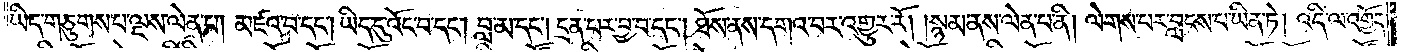ཡིད་གཅུགས་པ་ལྔས་ལེན་པ། མཛའ་བ་དང༌། ཡིད་དུ་འོང་བ་དང༌། བླ་མ་དང༌། དྲན་པར་བྱ་བ་དང༌། ཐོས་ནས་དགའ་བར་འགྱུར་རོ། །སྙམ་ནས་ལེན་པ་ནི། ལེགས་པར་བླངས་པ་ཡིན་ཏེ། འདི་ལ་འགྱོད་
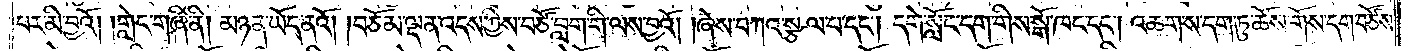པར་མི་བྱའོ། །གླེང་གཞི་ནི། མཉན་ཡོད་ནའོ། །བཅོམ་ལྡན་འདས་ཀྱིས་བཙོ་བླག་གི་ལས་བྱའོ། །ཞེས་བཀའ་སྩལ་པ་དང༌། དགེ་སློང་དག་གིས་སྒོ་ཁང་དང༌། འཆགས་དག་ཏུ་ཆོས་གོས་དག་བཙོས་
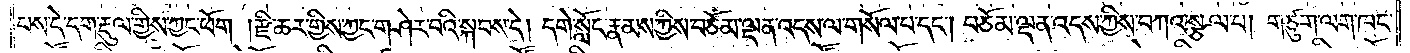པས་དེ་དག་རྡུལ་གྱིས་ཀྱང་ཕོག །རྫི་ཆར་གྱིས་ཀྱང་གཤེར་བའི་སྐབས་དེ། དགེ་སློང་རྣམས་ཀྱིས་བཅོམ་ལྡན་འདས་ལ་གསོལ་པ་དང༌། བཅོམ་ལྡན་འདས་ཀྱིས་བཀའ་སྩལ་པ། གཙུག་ལག་ཁང་
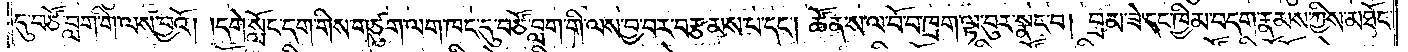དུ་བཙོ་བླག་གི་ལས་བྱའོ། །དགེ་སློང་དག་གིས་གཙུག་ལག་ཁང་དུ་བཙོ་བླག་གི་ལས་བྱས་བར་བརྩམས་པ་དང༌། ཚོན་ས་ལ་བོ་བ་ཁྲག་ལྟ་བུར་སྣང་བ། བྲམ་ཟེ་དང་ཁྱིམ་བདག་རྣམས་ཀྱིས་མཐོང་
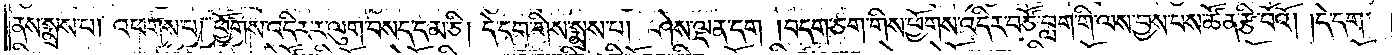ནས་སྨྲས་པ། འཕགས་པ། ཕྱོགས་འདིར་ར་ལུག་བསད་དམ་ཅི། དེ་དག་གིས་སྨྲས་པ། ཤེས་ལྡན་དག །བདག་ཅག་གིས་ཕྱོགས་འདིར་བཙོ་བླག་གི་ལས་བྱས་པས་ཚོན་རྩི་བོའོ། །དེ་དག་
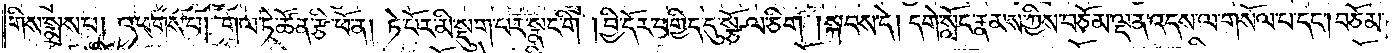གིས་སྨྲས་པ། འཕགས་པ། གལ་ཏེ་ཚོན་རྩི་ཕོ་ན། ཏེ་པོར་མི་སྡུག་པར་སྣང་གི། བྱི་དོར་བགྱིད་དུ་སྩོལ་ཅིག །སྐབས་དེ། དགེ་སློང་རྣམས་ཀྱིས་བཅོམ་ལྡན་འདས་ལ་གསོལ་པ་དང༌། བཅོམ་
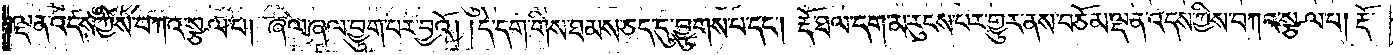ལྡན་འདས་ཀྱིས་བཀའ་སྩལ་པ། ཞལ་ཞལ་བྱུག་པར་བྱའོ། །དེ་དག་གིས་ཐམས་ཅད་དུ་བྱུགས་པ་དང༌། རྡོ་ཐལ་དག་མ་རུངས་པར་གྱུར་ནས་བཅོམ་ལྡན་འདས་ཀྱིས་བཀའ་སྩལ་པ། རྡོ་
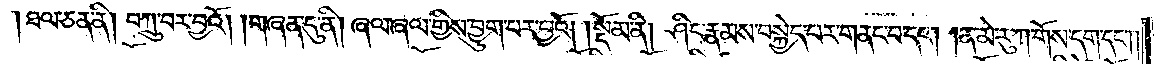ཐལ་ཅན་ནི། བཀྲུ་བར་བྱའོ། །གཞན་དུ་ནི། ཞལ་ཞལ་གྱིས་བྱུག་པར་བྱའོ།    །སྡོམ་ནི། ཤིང་རྣམས་བསྐྱེད་པར་གནང་བ་དང༌། ན་མེ་རུ་ཀ་གོས་དག་དང༌།
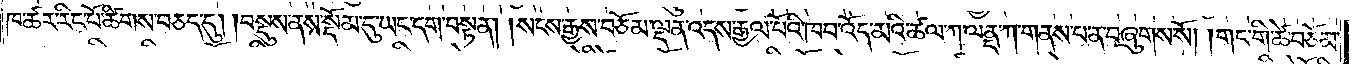ཁ་ཚར་རིང་པོ་ཚིགས་བཅད་དུ། །བསྡུས་ནས་སྡོམ་དུ་ཡང་དག་བསྟན། །སངས་རྒྱས་བཅོམ་ལྡན་འདས་རྒྱལ་པོའི་ཁབ་འོད་མའི་ཚལ་ཀ་ལནྡ་ཀ་གནས་པ་ན་བཞུགས་སོ། །གང་གི་ཚེ་བཅོམ་
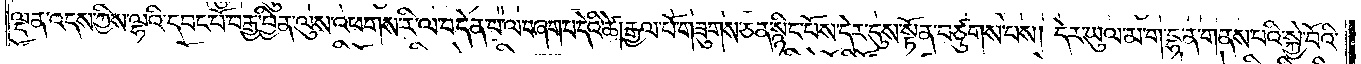ལྡན་འདས་ཀྱིས་ལྷའི་དབང་པོ་བརྒྱ་བྱིན་ལུས་འཕགས་རི་ལ་བདེན་པ་ལ་བཞག་པ་དེའི་ཚེ། རྒྱལ་པོ་གཟུགས་ཅན་སྙིང་པོས་དེར་དུས་སྟོན་བཙུགས་པས། དེར་ཡུལ་མ་ག་དྷ་ན་གནས་པའི་སྐྱེ་བོའི་
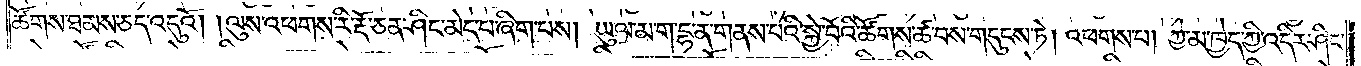ཚོགས་ཐམས་ཅད་འདུའོ། །ལུས་འཕགས་རི་རྡོ་ཅན་ཤིང་མེད་པ་ཞིག་པས། ཡུལ་མ་ག་དྷ་ན་གནས་པའི་སྐྱེ་བོའི་ཚོགས་ཚ་བས་གདུངས་ཏེ། འཕགས་པ། ཀྱེ་མ་ཁྱེད་ཀྱི་འདིར་ཤིང་
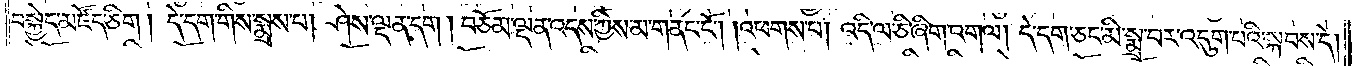བསྐྱེད་མཛོད་ཅིག །དེ་དག་གིས་སྨྲས་པ། ཤེས་ལྡན་དག །བཅོམ་ལྡན་འདས་ཀྱིས་མ་གནང་ངོ༌། །འཕགས་པ། འདི་ལ་ཅི་ཞིག་འགལ། དེ་དག་ཅང་མི་སྨྲ་བར་འདུག་པའི་སྐབས་དེ།
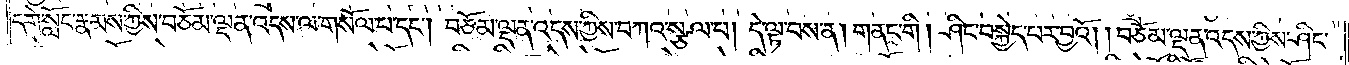དགེ་སློང་རྣམས་ཀྱིས་བཅོམ་ལྡན་འདས་ལ་གསོལ་པ་དང༌། བཅོམ་ལྡན་འདས་ཀྱིས་བཀའ་སྩལ་པ། དེ་ལྟ་བས་ན། གནང་གི། ཤིང་བསྐྱེད་པར་བྱའོ། །བཅོམ་ལྡན་འདས་ཀྱིས་ཤིང་
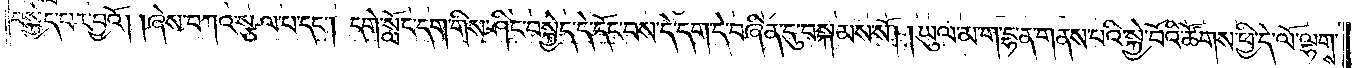བསྐྱེད་པར་བྱའོ། །ཞེས་བཀའ་སྩལ་པ་དང༌། དགེ་སློང་དག་གིས་ཤིང་བསྐྱེད་དེ་དོང་བས་དེ་དག་དེ་བཞིན་དུ་བསྐམས་སོ། །ཡུལ་མ་ག་དྷ་ན་གནས་པའི་སྐྱེ་བོའི་ཚོགས་ཕྱི་དེ་ལོ་ལྷགས་
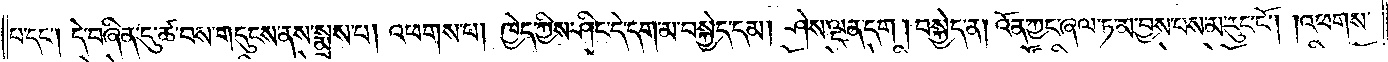པ་དང༌། དེ་བཞིན་དུ་ཚ་བས་གདུངས་ནས་སྨྲས་པ། འཕགས་པ། ཁྱེད་ཀྱིས་ཤིང་དེ་དག་མ་བསྐྱེད་དམ། ཤེས་ལྡན་དག། བསྐྱེད་ན། འོན་ཀྱང་ཞལ་ཏ་མ་བྱས་པས་མ་རུང་ངོ༌། །འཕགས་
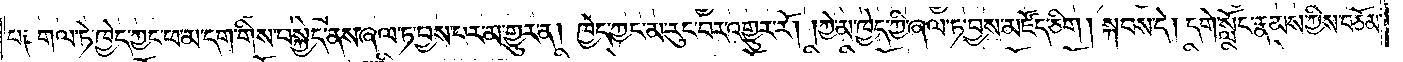པ༑ གལ་ཏེ་ཁྱེད་ཀྱང་ཕ་མ་དག་གིས་བསྐྱེད་ནས་ཞལ་ཏ་བྱས་པར་མ་གྱུར་ན། ཁྱེད་ཀྱང་མ་རུང་བར་འགྱུར་རོ། །ཀྱེ་མ་ཁྱེད་ཀྱི་ཞལ་ཏ་བྱས་མཛོད་ཅིག །སྐབས་དེ། དགེ་སློང་རྣམས་ཀྱིས་བཅོམ་
